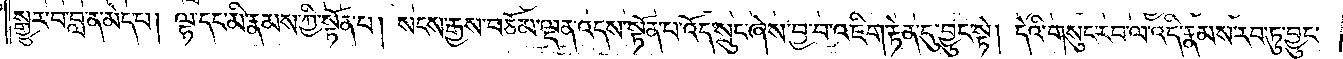སྒྱུར་བ་བླ་ན་མེད་པ། ལྷ་དང་མི་རྣམས་ཀྱི་སྟོན་པ། སངས་རྒྱས་བཅོམ་ལྡན་འདས་སྟོན་པ་འོད་སྲུང་ཞེས་བྱ་བ་འཇིག་རྟེན་དུ་བྱུང་སྟེ། དེའི་གསུང་རབ་ལ་འདི་རྣམས་རབ་ཏུ་བྱུང་
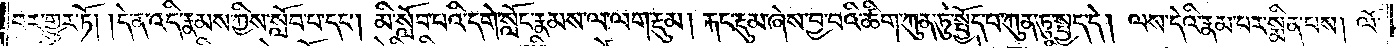བར་གྱུར་ཏོ། །དེ་ན་འདི་རྣམས་ཀྱིས་སློབ་པ་དང༌། མི་སློབ་པའི་དགེ་སློང་རྣམས་ལ་ལག་རྡུམ། རྐང་རྡུམ་ཞེས་བྱ་བའི་ཚིག་ཀུན་ཏུ་སྤྱོད་པ་ཀུན་ཏུ་སྤྱད་དེ། ལས་དེའི་རྣམ་པར་སྨིན་པས། ལོ་
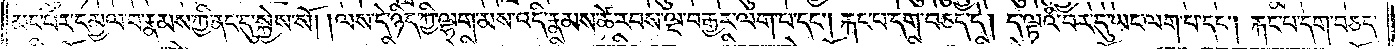མང་པོར་དམྱལ་བ་རྣམས་ཀྱི་ནང་དུ་སྐྱེས་སོ། །ལས་དེ་ཉིད་ཀྱི་ལྷག་མས་འདི་རྣམས་ཚེ་རབས་ལྔ་བརྒྱར་ལག་པ་དང༌། རྐང་པ་དག་བཅད་དེ། ད་ལྟའི་བར་དུ་ཡང་ལག་པ་དང༌། རྐང་པ་དག་བཅད་
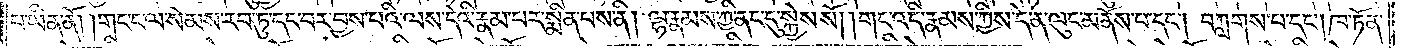པ་ཡིན་ནོ། །གང་ང་ལ་སེམས་རབ་ཏུ་དང་བར་བྱས་པའི་ལས་དེའི་རྣམ་པར་སྨིན་པས་ནི། ལྷ་རྣམས་ཀྱི་ནང་དུ་སྐྱེས་སོ། །གང་འདི་རྣམས་ཀྱིས་དེ་ན་ལུང་མ་ནོས་པ་དང༌། བཀླགས་པ་དང༌། ཁ་ཏོན་
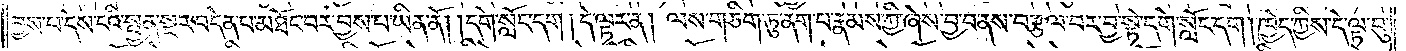བྱས་པ་དེས་ངའི་སྤྱན་སྔར་བདེན་པ་མཐོང་བར་བྱས་པ་ཡིན་ནོ། །དགེ་སློང་དག །དེ་ལྟར་ན། ལས་གཅིག་ཏུ་ནག་པ་རྣམས་ཀྱི་ཞེས་བྱ་བ་ནས་བརྩལ་བར་བྱ་སྟེ་དགེ་སློང་དག །ཁྱེད་ཀྱིས་དེ་ལྟ་བུ་
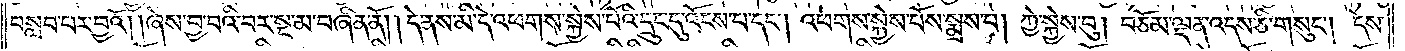བསླབ་པར་བྱའོ། །ཞེས་བྱ་བའི་བར་སྔ་མ་བཞིན་ནོ། །དེ་ནས་མི་དེ་འཕགས་སྐྱེས་པོའི་དྲུང་དུ་འོངས་པ་དང༌། འཕགས་སྐྱེས་པོས་སྨྲས་པ། ཀྱེ་སྐྱེས་བུ། བཅོམ་ལྡན་འདས་ཅི་གསུང༌། དེས་
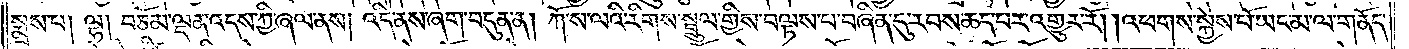སྨྲས་པ། ལྷ། བཅོམ་ལྡན་འདས་ཀྱི་ཞལ་ནས། འདི་ནས་ཞག་བདུན་ན། ཀོ་ས་ལའི་རིགས་སྦྲུལ་གྱིས་བལྟས་པ་བཞིན་དུ་རབས་ཆད་པར་འགྱུར་རོ། །འཕགས་སྐྱེས་པོ་ཡང་མ་ལ་གནོད་
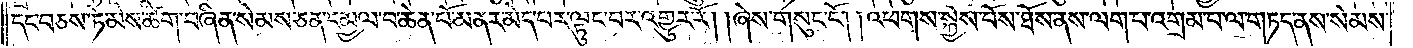དང་བཅས་ཏེ་མེས་ཚིག་བཞིན་སེམས་ཅན་དམྱལ་བ་ཆེན་པོ་མནར་མེད་པར་ལྟུང་བར་འགྱུར་རོ། །ཞེས་གསུང་ངོ༌། །འཕགས་སྐྱེས་པོས་ཐོས་ནས་ལག་པ་འགྲམ་པ་ལ་གཏད་ནས་སེམས་
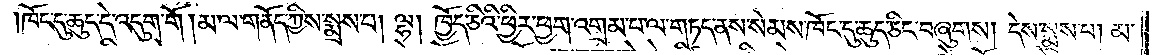ཁོང་དུ་ཆུད་དེ་འདུག་གོ །མ་ལ་གནོད་ཀྱིས་སྨྲས་པ། ལྷ། ཁྱོད་ཅིའི་ཕྱིར་ཕྱག་འགྲམ་པ་ལ་གཏད་ནས་སེམས་ཁོང་དུ་ཆུད་ཅིང་བཞུགས། དེས་སྨྲས་པ། མ་
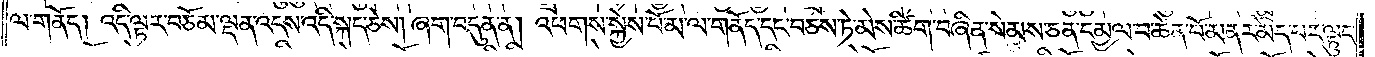ལ་གནོད། འདི་ལྟར་བཅོམ་ལྡན་འདས་འདི་སྐད་ཅེས། ཞག་བདུན་ན། འཕགས་སྐྱེས་པོ་མ་ལ་གནོད་དང་བཅས་ཏེ་མེས་ཚིག་བཞིན་སེམས་ཅན་དམྱལ་བ་ཆེན་པོ་མནར་མེད་པར་ལྟུང་
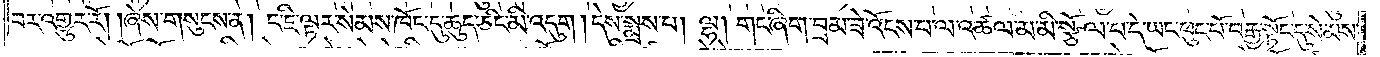བར་འགྱུར་རོ། །ཞེས་གསུངས་ན། ང་ཇི་ལྟར་སེམས་ཁོང་དུ་ཆུད་ཅིང་མི་འདུག །དེས་སྨྲས་པ། ལྷ། གང་ཞིག་བྲམ་ཟེ་འོངས་པ་ལ་འཚལ་མ་མི་སྩོལ་པ་དེ་ཡང་ཕུང་པོ་བརྒྱ་སྟོང་དུ་སེམས་
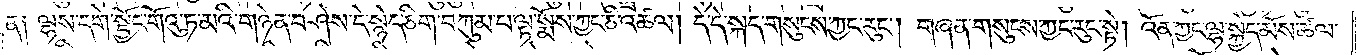ན༑ ལྷས་དགེ་སྦྱོང་གོའུ་ཏ་མའི་གཉེན་བཤེས་དེ་སྙེད་ཅིག་བཀུམ་པ་ལྟ་སྨོས་ཀྱང་ཅི་འཚལ། དེ་དེ་སྐད་གསུངས་ཀྱང་རུང༌། གཞན་གསུངས་ཀྱང་རུང་སྟེ། འོན་ཀྱང་ལྷ་སྐྱེད་མོས་ཚལ་
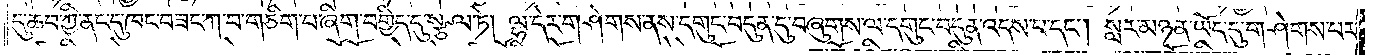དུ་ཆབ་ཀྱི་ནང་དུ་ཁང་བཟང་ཀ་བ་གཅིག་པ་ཞིག་བགྱིད་དུ་སྩལ་ཏེ། ལྷ་དེར་གཤེགས་ནས་དགུང་བདུན་དུ་བཞུགས་ལ་དགུང་བདུན་འདས་པ་དང༌། སླར་མཉན་ཡོད་དུ་གཤེགས་པར་
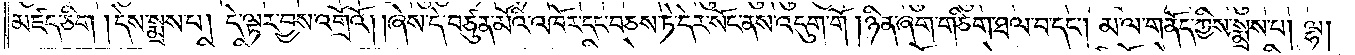མཛད་ཅིག །དེས་སྨྲས་པ། དེ་ལྟར་བྱས་འགྲོའོ། །ཞེས་དེ་བཙུན་མོའི་འཁོར་དང་བཅས་ཏེ་དེར་སོང་ནས་འདུག་གོ །ཉིན་ཞག་གཅིག་ཐལ་པ་དང༌། མ་ལ་གནོད་ཀྱིས་སྨྲས་པ། ལྷ།
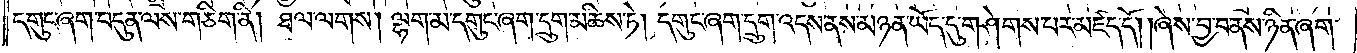དགུང་ཞག་བདུན་ལས་གཅིག་ནི། ཐལ་ལགས། ལྷག་མ་དགུང་ཞག་དྲུག་མཆིས་ཏེ། དགུང་ཞག་དྲུག་འདས་ནས་མཉན་ཡོད་དུ་གཤེགས་པར་མཛད་དོ། །ཞེས་བྱ་བ་ནས་ཉིན་ཞག་
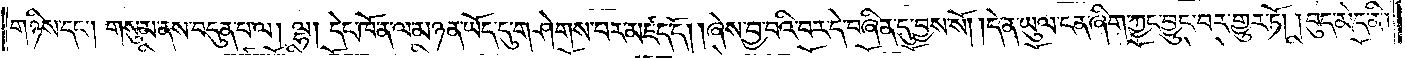གཉིས་དང༌། གསུམ་ནས་བདུན་པ་ལ། ལྷ། དེང་ཁོ་ན་ལ་མཉན་ཡོད་དུ་གཤེགས་པར་མཛད་དོ། །ཞེས་བྱ་བའི་བར་དེ་བཞིན་དུ་བྱས་སོ། །དེ་ན་ཡུལ་ངན་ཞིག་ཀྱང་བྱུང་བར་གྱུར་ཏོ། །བུད་མེད་ནི།
